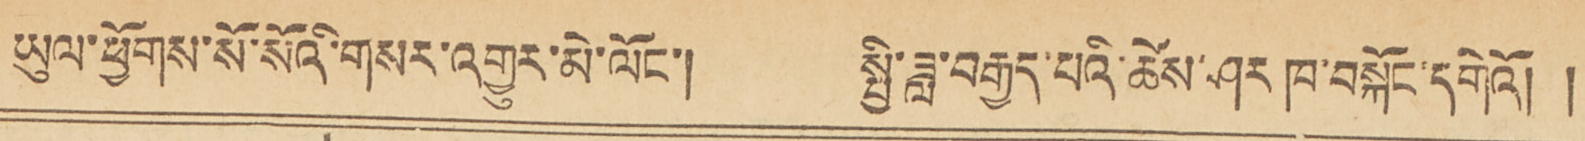ཡུལ་ཕྱོགས་སོ་སོའི་གསར་འགྱུར་མེ་ལོང་། སྤྱི་ཟླ་བརྒྱད་པོའི་ཚེས་ཤར ཁ་བསྐོང་དགེའོ། །
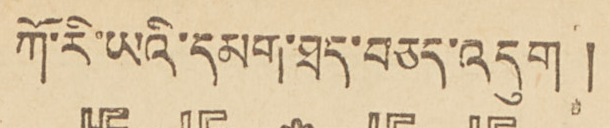ཀོ་རི་ཡའི་དམག་ཐད་བཅད་འདུག།།
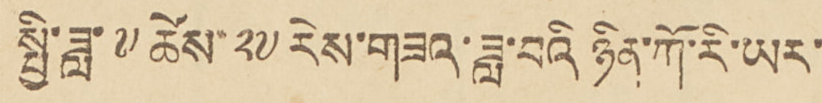སྤྱི་ཟླ་༧ཚེས༢༧ རེས་གཟའ་ཟླ་བའི ཉིན་ཀོ་རི་ཡར་
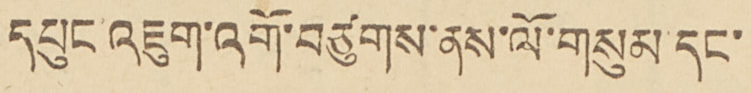དཔུང་འཇུག་འགོ་བཙུགས་ནས་ལོ་གསུམ་དང་
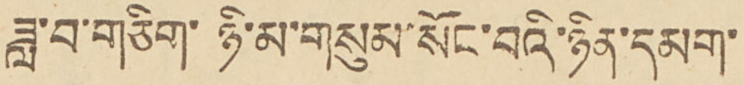ཟླ་བ་གཅིག་ཉི་མ་གསུམ་སོང་བའི་ཉིན་དམག་
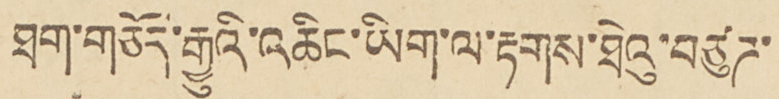ཐག་གཅོད་རྒྱུའི་འཆིང་ཡིག་ལ་རྟགས་ཐེའུ་བཙུཌ་
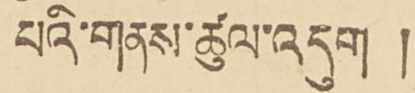པའི་གནས་ཚུལ་འདུག།།
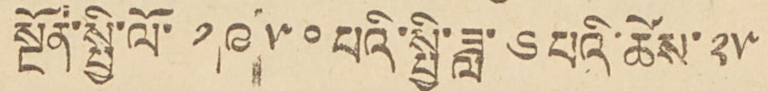སྔོན་སྤྱི་ལོ་ ༡༩༥༠ པའི་སྤྱི་ཟླ་༦པའི་ཚེས་༢༥
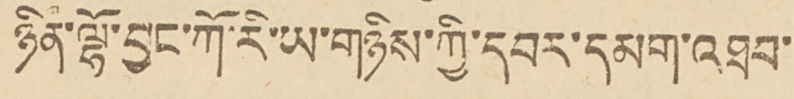ཉིན་ལྷོ་བྱང་ཀོ་རི་ཡ་གཉིས་ཀྱི་དབར་དམག་འཐབ་
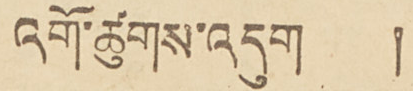འགོ་ཚུགས་འདུག །
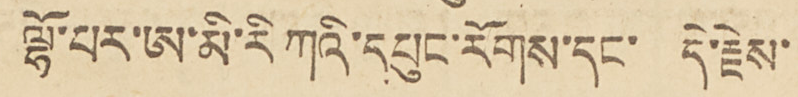ལྷོ་པར་ཨ་མི་རི་ཀའི་དཔུང་རོགས་དང་ དེ་རྗེས་
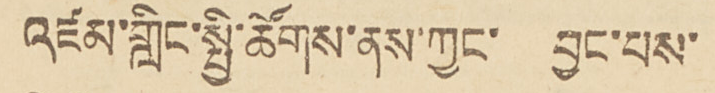འཛམ་གླིང་སྤྱི་ཚོགས་ནས་ཀྱང་ བྱང་པས་
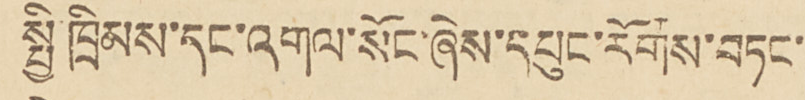སྤྱི་ཁྲིམས་དང་འགལ་སོང་ཞེས་དཔུང་རོགས་བཏང་
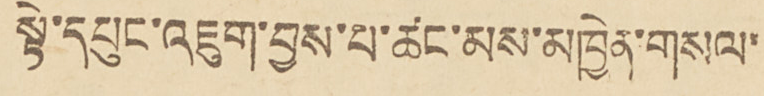སྟེ་དཔུང་འཇུག་བྱས་ལ་ཚང་མས་མཁྱེན་གསལ་
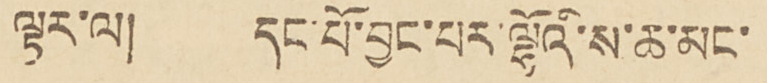ལྟར་ལ། དང་པོ་བྱང་པར་ལྷོའི་ས་ཆ་མང་
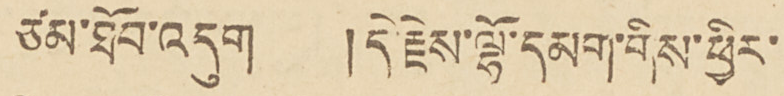ཙམ་ཐོབ་འདུག །དེ་རྗེས་ལྷོ་དམག་གིས་ཕྱིར་
